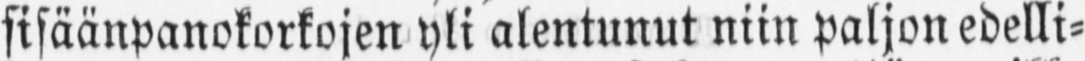sisäänpanokorkojen yli alentunut niin paljon edelli-
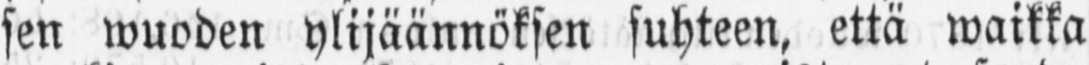sen wuoden ylijäännöksen suhteen, että waikka
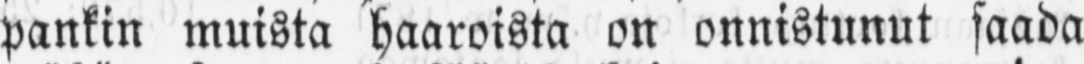pankin muista haaroista on onnistunut saada
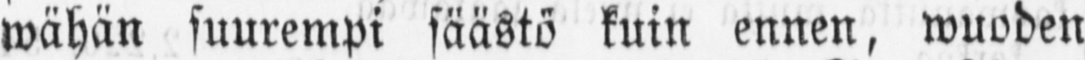wähän suurempi säästö kuin ennen, wuoden
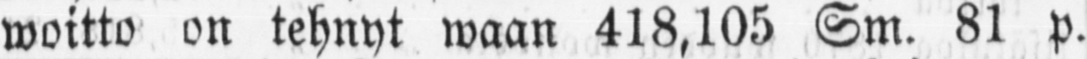woitto on tehnyt waan 418,105 Sm. 81 p.
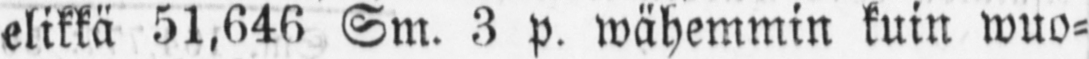elikkä 51,646 Sm. 3 p. wähemmin kuin wuo-
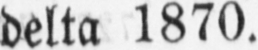delta 1870.
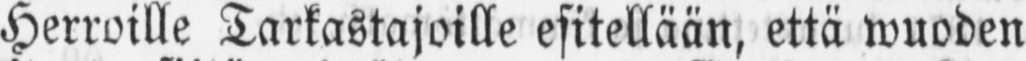Herroille Tarkastajoille esitellään, että wuoden
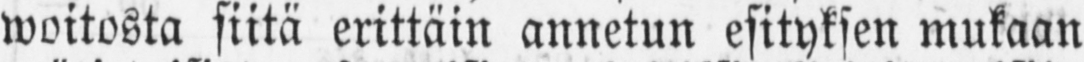woitosta siitä erittäin annetun esityksen mukaan
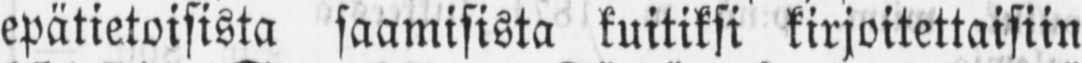epätietoisista saamisista kuitiksi kirjoitettaisiin
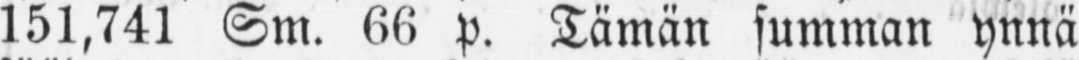151,741 Sm. 66 p. Tämän summan ynnä
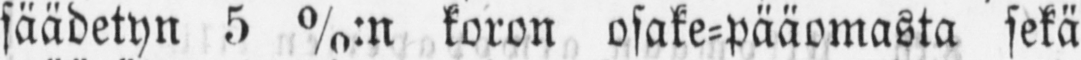säädetyn 5 %:n koron osake-pääomasta sekä
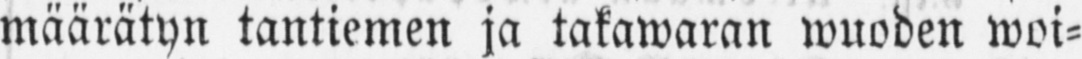määrätyn tantiemen ja takawaran wuoden woi-
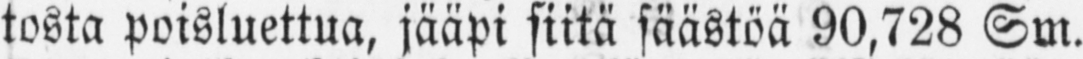tosta poisluettua, jääpi sillä säästöä 90,728 Sm.
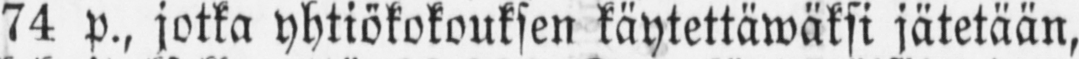74 p., jotka yhtiökokouksen käytettäwäksi jätetään,
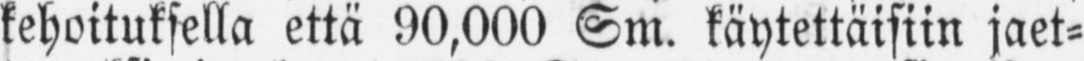kehoituksella että 90,000 Sm. käytettäisiin jaet-
